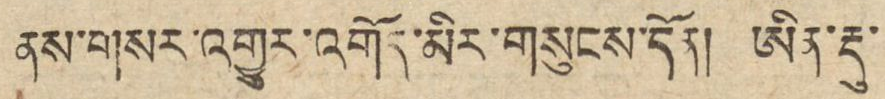ནས་གསར་འགྱུར་འགོད་མིར་གསུངས་དོན། ཨིན་རྡུ་
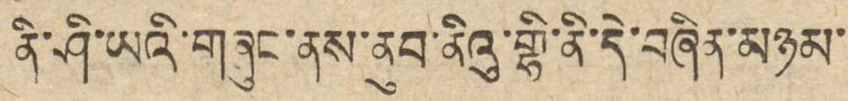ནི་ཤི་ཡའི་གཞུང་ནས་ནུབ་ནིའུ་གྷི་ནི་དེ་བཞིན་མཉམ་
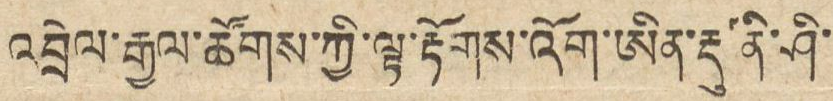འབྲེལ་རྒྱལ་ཚོགས་ཀྱི་ལྟ་རྟོགས་འོག་ཨིན་རྡུ་ནི་ཤི་
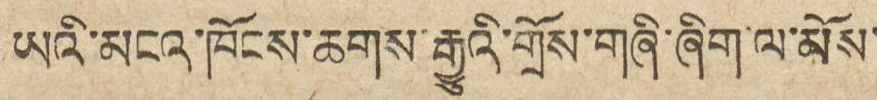ཡའི་མངའ་ཁོངས་ཆགས་རྒྱུའི་གྲོས་གཞི་ཞིག་ལ་མོས་
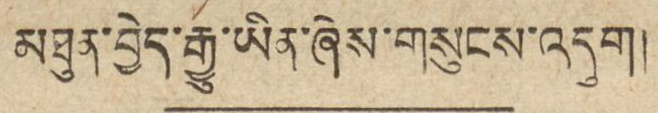མཐུན་བྱེད་རྒྱུ་ཡིན་ཞེས་གསུངས་འདུག།
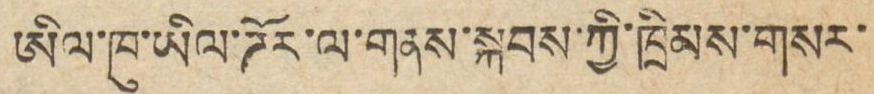ཨིལ་ཁུ་ཡིལ་ཌོར་ལ་གནས་སྐབས་ཀྱི་ཁྲིམས་གསར་
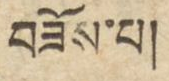བཟོས་པ།
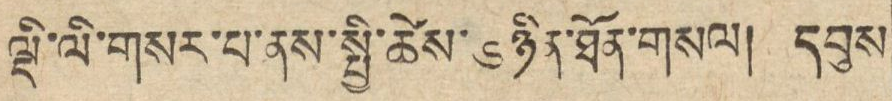ལྡི་ལི་གསར་པ་ནས་སྤྱི་ཚེས་ ༦ ཉིན་ཐོན་གསལ། དབུས
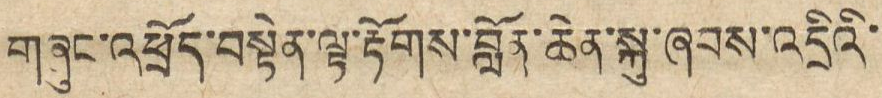གཞུང་འཕྲོད་བསྟེན་ལྟ་རྟོགས་བློན་ཆེན་སྐུ་ཞབས་འདྲིའི་
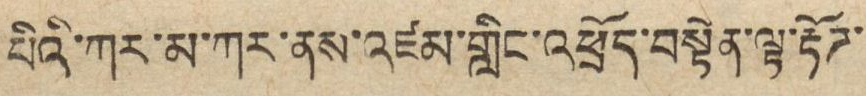པིའི་ཀར་མ་ཀར་ནས་འཛམ་གླིང་འཕྲོད་བསྟེན་ལྟ་རྟོཌ་
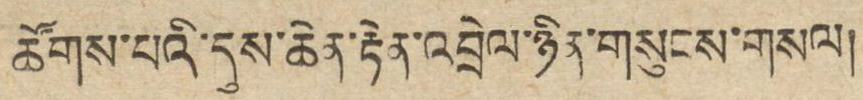ཚོགས་པའི་དུས་ཆེན་རྟེན་འབྲེལ་ཉིན་གསུངས་གསལ།
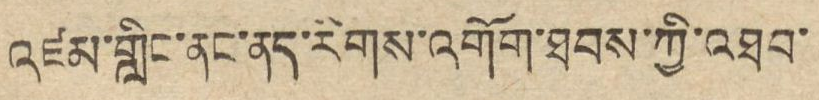འཛམ་གླིང་ནང་ནད་རིགས་འགོག་ཐབས་ཀྱི་འཐབ་
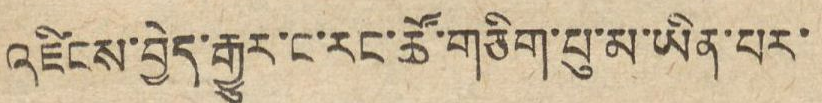འཛིངས་བྱེད་རྒྱུར་ང་རང་ཚོ་གཅིག་པུ་མ་ཡིན་པར་
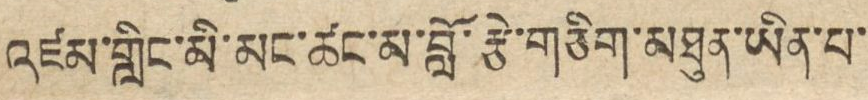འཛམ་གླིང་མི་མང་ཚང་མ་བློ་རྩེ་གཅིག་མཐུན་ཡིན་པ་
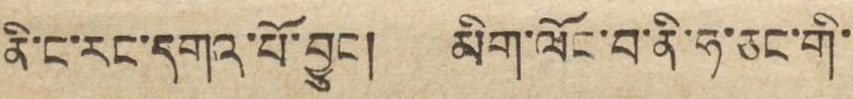ནི་ང་རང་དགའ་པོ་བྱུང། མིག་ལོང་བ་ནི་ཧ་ཅང་གི་
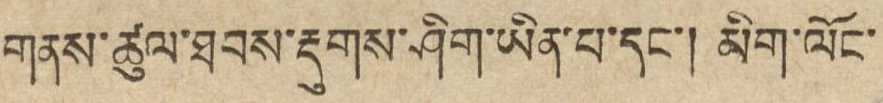གནས་ཚུལ་ཐབས་རྡུགས་ཤིག་ཡིན་པ་དང་། མིག་ལོང་
